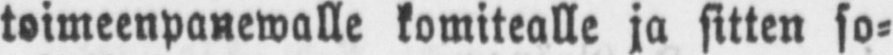toimeenpanewalle komitealle ja sitten so-
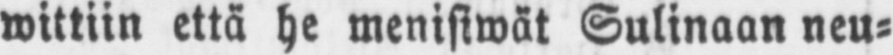wittiin että he menisiwät Sulinaan neu-
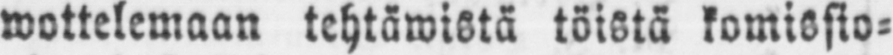wottelemaan tehtäwistä töistä komissio-
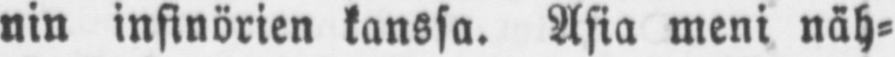nin insinörien kanssa. Asia meni näh-
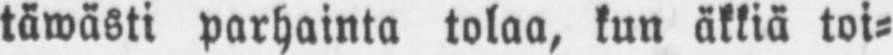täwästi parhainta tolaa, kun äkkiä toi-
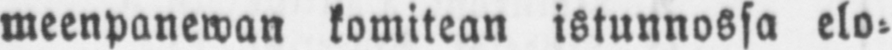meenpanewan komitean istunnossa elo-
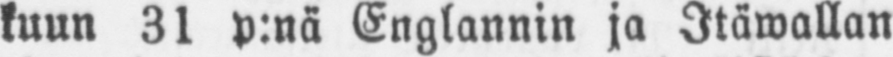kuun 31 p:nä Englannin ja Itäwallan
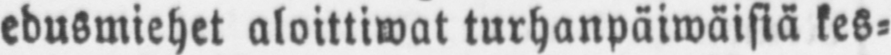edusmiehet aloittiwat turhanpäiwäisiä kes-
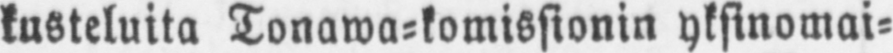kusteluita Tonawa-komissionin yksinomai-
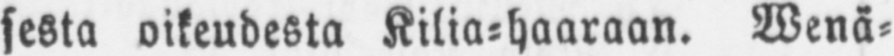sesta oikeudesta Kilia-haaraan. Wenä-
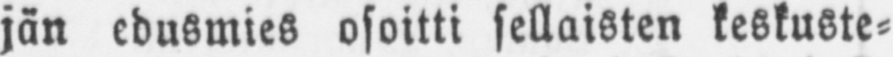jän edusmies osoitti sellaisten keskuste-
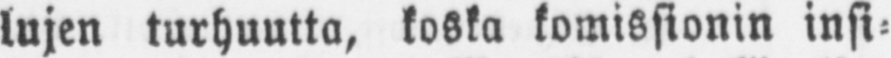lujen turhuutta, koska komissionin insi-
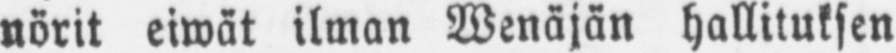nörit eiwät ilman Wenäjän hallituksen
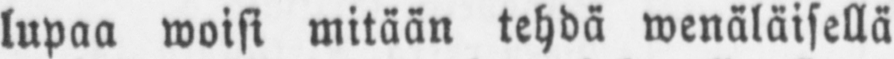lupaa woisi mitään tehdä wenäläisellä
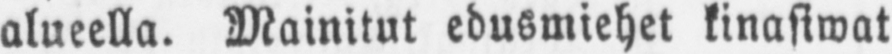alueella. Mainitut edusmiehet kinasiwat
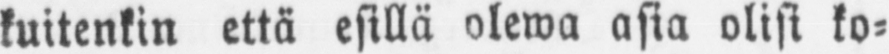kuitenkin että esillä olewa asia olisi ko-
